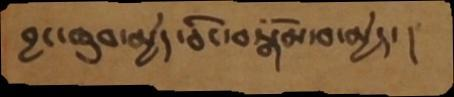བྱང་ཆུབ་མྱེད་ཅིང་བསྒོམ་བ་མྱེད་ །
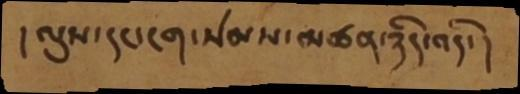།  ལུས་དང་ངག་སེམས་མཚན་ཉིད་འདི་ །
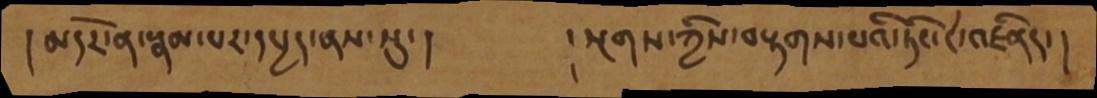། མདོར་ན་རྣམ་པར་དཔྱད་ནས་སུ་།     ། སྔགས་ཀྱིས་བརྟགས་པའི་ཏིང་ངེ་འཛིནད་།
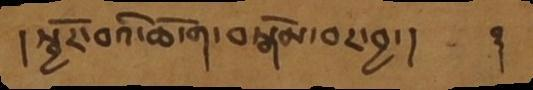།  སྦྱོར་བའི་ཆོ་ག་བསྒོམ་བར་བྱ་ །   ࿑
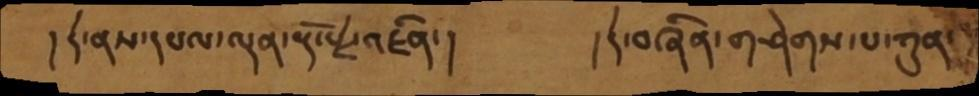། དེ་ནས་དཔལ་ལྡན་རྡོ་རྗེ་འཛིན་།      ། དེ་བཞིན་གཤེགས་པ་ཀུན་
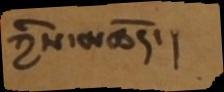ཀྱིས་མཆོད་ །
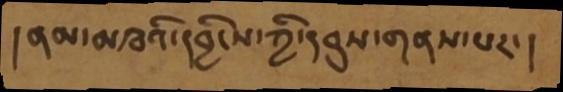། ནམ་མཁའི་དབྱིངས་ཀྱི་དབུས་གནས་པར་།
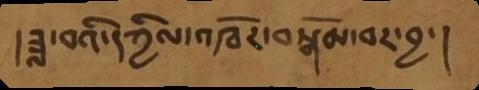། ཟླ་བའི་དཀྱིལ་འཁོར་བསྒོམ་བར་བྱ་།
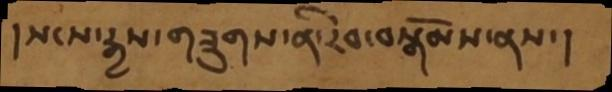། སངས་རྒྱས་གཟུགས་ནི་རབ་བསྒོམས་ནས་ །
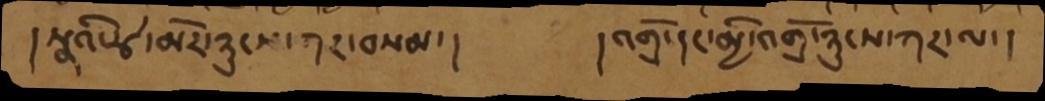།  སྣའི་རྩེ་མོར་ཉུངས་ཀར་བསམ་།         ། འགྲོ་དང་མྱི་འགྲོ་ཉུངས་ཀར་ལ་ །
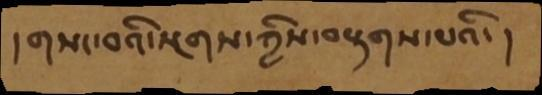།  གསང་བའི་སྔགས་ཀྱིས་བརྟགས་པའི་ །
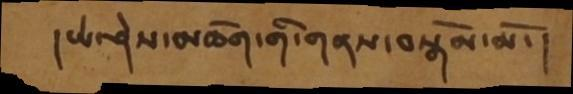། ཡེ་ཤེས་མཆོག་གི་གནས་བསྒོམ་མོ་ །
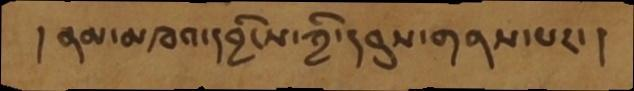། ནམ་མཁའ་དབྱིངས་ཀྱི་དབུས་གནས་པར་།
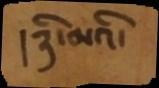། ཉི་མའི་
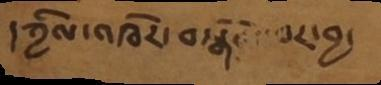དཀྱིལ་འཁོར་བསྒོམ་པར་བྱ་
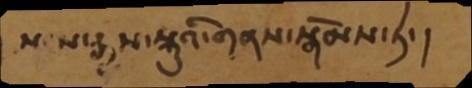སངས་རྒྱས་སྐུའི་གནས་སྒོམས་ཏེ་ །
